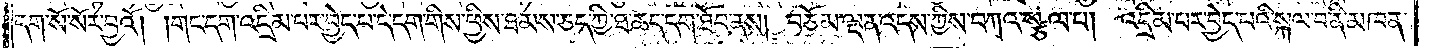དག་སོ་སོར་བྱའོ། །གང་དག་འདྲིམ་པར་བྱེད་པ་དེ་དག་གིས་ཕྱིས་ཐམས་ཅད་ཀྱི་ཐ་ཆད་དག་ཐོབ་ནས། བཅོམ་ལྡན་འདས་ཀྱིས་བཀའ་སྩལ་པ། འདྲིམ་པར་བྱེད་པའི་སྐལ་བ་ནི་མཁན་
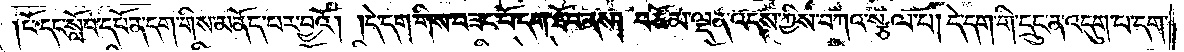པོ་དང་སློབ་དཔོན་དག་གིས་མནོད་པར་བྱའོ། །དེ་དག་གིས་བཟང་པོ་དག་ཐོབ་ནས། བཅོམ་ལྡན་འདས་ཀྱིས་བཀའ་སྩལ་པ། དེ་དག་གི་དྲུང་ན་འདུག་པ་དག་
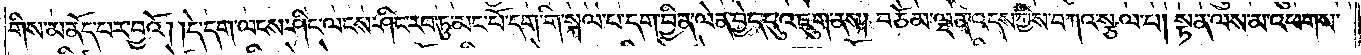གིས་མནོད་པར་བྱའོ། །དེ་དག་ལངས་ཤིང་ལངས་ཤིང་རབ་ཏུ་མང་པོ་དག་གི་སྐལ་པ་དག་བྱིན་ལེན་བྱེད་དུ་འཇུག་ནས། བཅོམ་ལྡན་འདས་ཀྱིས་བཀའ་སྩལ་པ། སྟན་ལས་མ་འཕགས་
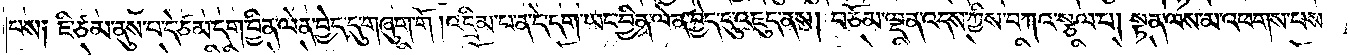པས༑ ཇི་ཙམ་ནུས་པ་དེ་ཙམ་དག་བྱིན་ལེན་བྱེད་དུ་གཞུག་གོ །འདྲིམ་པ་ན་དེ་དག་ཡང་བྱིན་ལེན་བྱེད་དུ་འཇུད་ནས། བཅོམ་ལྡན་འདས་ཀྱིས་བཀའ་སྩལ་པ། སྟན་ལས་མ་འཕགས་པས་
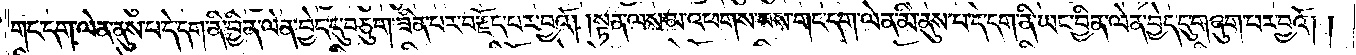གང་དག་ལེན་ནུས་པ་དེ་དག་ནི་བྱིན་ལེན་བྱེད་དུ་བཅུག་ཟིན་པར་བརྗོད་པར་བྱའོ། །སྟན་ལས་མ་འཕགས་པས་གང་དག་ལེན་མི་ནུས་པ་དེ་དག་ནི་ཡང་བྱིན་ལེན་བྱེད་དུ་གཞུག་པར་བྱའོ། །
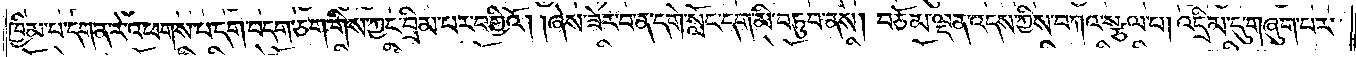ཁྱིམ་པ་དག་ན་རེ་འཕགས་པ་དག་བདག་ཅག་གིས་ཀྱང་བྲིམ་པར་བགྱིའོ། །ཞེས་ཟེར་བ་ན་དགེ་སློང་དག་མི་བཏུབ་ནས། བཅོམ་ལྡན་འདས་ཀྱིས་བཀའ་སྩལ་པ། འདྲིམ་དུ་གཞུག་པར་
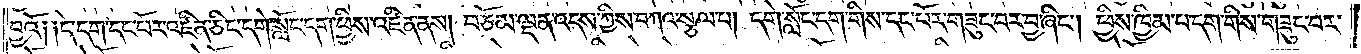བྱའོ༑ ༑དེ་དག་དང་པོར་འཛིན་ཅིང་དགེ་སློང་དག་ཕྱིས་འཛིན་ནས། བཅོམ་ལྡན་འདས་ཀྱིས་བཀའ་སྩལ་པ། དགེ་སློང་དག་གིས་དང་པོར་གཟུང་བར་བྱ་ཞིང༌། ཕྱིས་ཁྱིམ་པ་དག་གིས་གཟུང་བར་
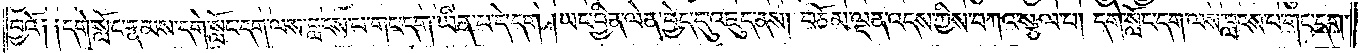བྱའོ༑ ༑དགེ་སློང་རྣམས་དགེ་སློང་དག་ལས་བླངས་པ་གང་དག་ཡིན་པ་དེ་དག །ཡང་བྱིན་ལེན་བྱེད་དུ་འཇུད་ནས། བཅོམ་ལྡན་འདས་ཀྱིས་བཀའ་སྩལ་པ། དགེ་སློང་དག་ལས་བླངས་གང་དག་
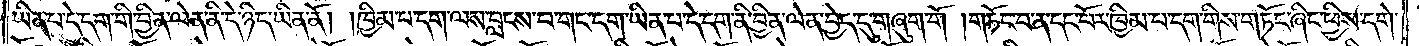ཡིན་པ་དེ་དག་གི་བྱིན་ལེན་ནི་དེ་ཉིད་ཡིན་ནོ། །ཁྱིམ་པ་དག་ལས་བླངས་པ་གང་དག་ཡིན་པ་དེ་དག་ནི་བྱིན་ལེན་བྱེད་དུ་གཞུག་གོ །གཏོང་བ་ན་དང་པོར་ཁྱིམ་པ་དག་གིས་གཏོང་ཞིང་ཕྱིས་དགེ་
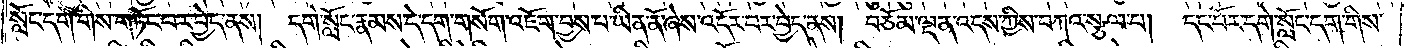སློང་དག་གིས་གཏོང་བར་བྱེད་ནས། དགེ་སློང་རྣམས་དེ་དག་གསོག་འཇོག་བྱས་པ་ཡིན་ནོ་ཞེས་འདོར་བར་བྱེད་ནས། བཅོམ་ལྡན་འདས་ཀྱིས་བཀའ་སྩལ་པ། དང་པོར་དགེ་སློང་དག་གིས་
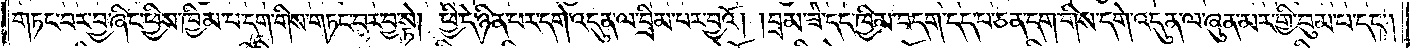གཏང་བར་བྱ་ཞིང་ཕྱིས་ཁྱིམ་པ་དག་གིས་གཏང་བར་བྱ་སྟེ། ཕྱི་དེ་ཉིན་པར་དགེ་འདུན་ལ་བྲིམ་པར་བྱའོ། །བྲམ་ཟེ་དང་ཁྱིམ་བདག་དད་པ་ཅན་དག་གིས་དགེ་འདུན་ལ་ཞུན་མར་གྱི་བུམ་པ་དང༌།
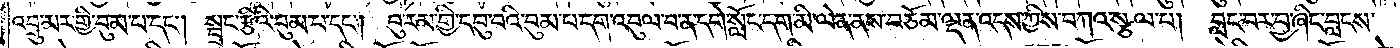འབྲུ་མར་གྱི་བུམ་པ་དང༌། སྦྲང་རྩིའི་བུམ་པ་དང༌། བུ་རམ་གྱི་དབུ་བའི་བུམ་པ་དག་འབུལ་བ་ན་དགེ་སློང་དག་མི་ལེན་ནས་བཅོམ་ལྡན་འདས་ཀྱིས་བཀའ་སྩལ་པ། བླང་བར་བྱ་ཞིང་བླངས་
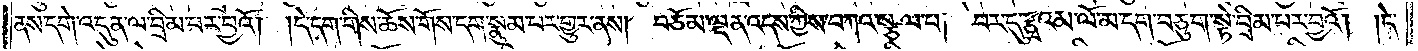ནས་དགེ་འདུན་ལ་བྲིམ་པར་བྱའོ། །དེ་དག་གིས་ཆོས་གོས་དག་སྣུམ་པར་གྱུར་ནས། བཅོམ་ལྡན་འདས་ཀྱིས་བཀའ་སྩལ་པ། བར་དུ་རྩྭའམ་ལོ་མ་དག་བཅུག་སྟེ་བྲིམ་པར་བྱའོ། །དེ་
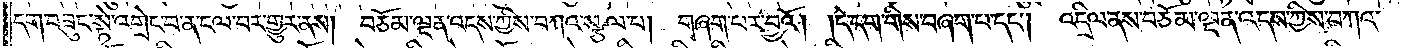དག་བཟུང་སྟེ་འགྲེང་བ་ན་ངལ་བར་གྱུར་ནས། བཅོམ་ལྡན་འདས་ཀྱིས་བཀའ་སྩལ་པ། གཞག་པར་བྱའོ། །དེ་དག་གིས་བཞག་པ་དང༌། འདྲིལ་ནས་བཅོམ་ལྡན་འདས་ཀྱིས་བཀའ་
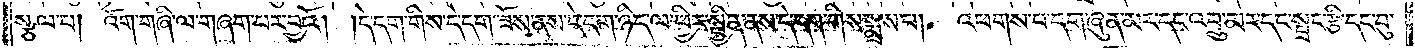སྩལ་པ། འོག་གཞི་ལ་གཞག་པར་བྱའོ། །དེ་དག་གིས་དེ་དག་ཟོས་ནས་དེ་དག་ཉིད་ལ་ཕྱིར་སྦྱིན་ནས་དེ་དག་གིས་སྨྲས་པ། འཕགས་པ་གཞུན་མར་དང་འབྲུ་མར་དང་སྦྲང་རྩི་དང་བུ་
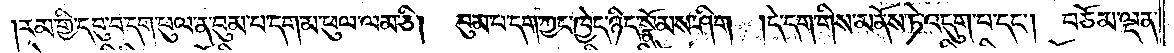རམ་གྱི་དབུ་བ་དག་ཕུལ་ན་བུམ་པ་དག་མ་ཕུལ་ལམ་ཅི། བུམ་པ་དག་ཀྱང་ཁྱེད་ཉིད་སྣོམས་ཤིག །དེ་དག་གིས་མནོས་ཏེ་འདུག་པ་དང༌། བཅོམ་ལྡན་
